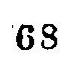68
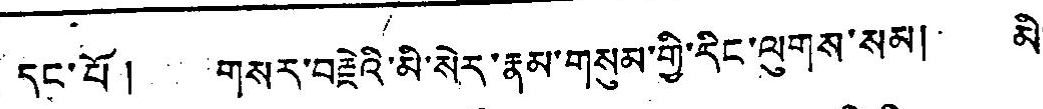དང་པོ། གསར་བརྗེའི་མི་སེར་རྣམ་གསུམ་གྱི་རིང་ལུགས་སམ། མི་
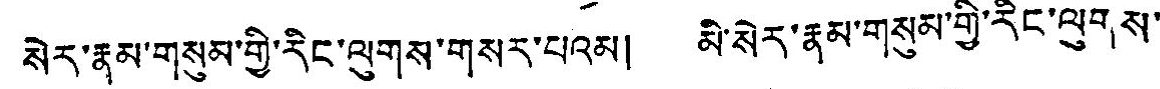སེར་རྣམ་གསུམ་གྱི་རིང་ལུགས་གསར་པའམ། མི་སེར་རྣམ་གསུམ་གྱི་རིང་ལུགས་
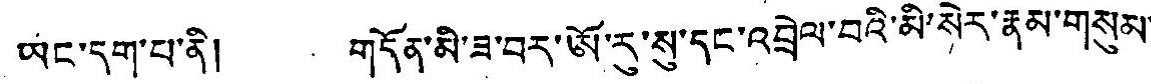ཡང་དག་པ་ནི། གདོན་མི་ཟ་བར་ཨོ་རུ་སུ་དང་འབྲེལ་བའི་མི་སེར་རྣམ་གསུམ་
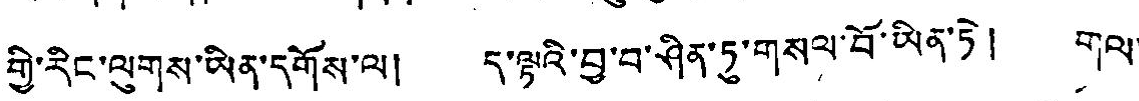གྱི་རིང་ལུགས་ཡིན་དགོས་ལ། ད་ལྟའི་བྱ་བ་ཤིན་ཏུ་གསལ་བོ་ཡིན་ཏེ། གལ་
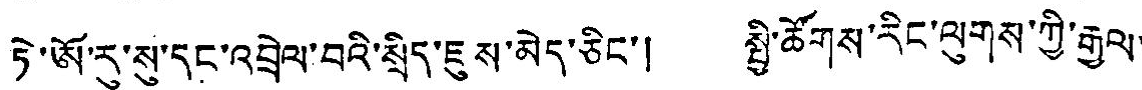ཏེ་ཨོ་རུ་སུ་དང་འབྲེལ་བའི་སྲིད་ཇུས་མེད་ཅིང་། སྤྱི་ཚོགས་རིང་ལུགས་ཀྱི་རྒྱལ་
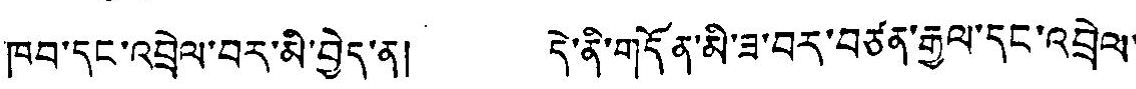ཁབ་དང་འབྲེལ་བར་མི་བྱེད་ན། དེ་ནི་གདོན་མི་ཟ་བར་བཙན་རྒྱལ་དང་འབྲེལ་
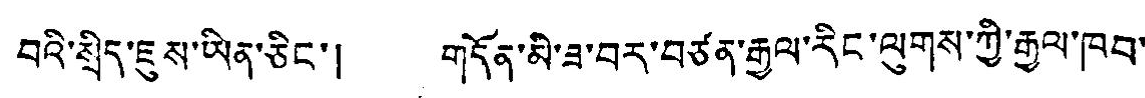བའི་སྲིད་ཇུས་ཡིན་ཅིང་། གདོན་མི་ཟ་བར་བཙན་རྒྱལ་རིང་ལུགས་ཀྱི་རྒྱལ་ཁབ་
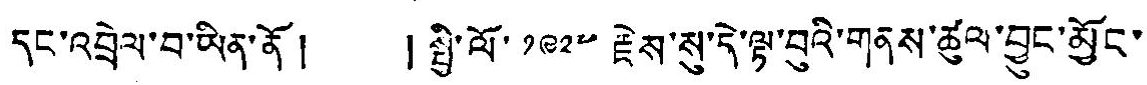དང་འབྲེལ་བ་ཡིན་ནོ ། །སྤྱི་ལོ་ ༡༩༢༧ རྗེས་སུ་དེ་ལྟ་བུའི་གནས་ཚུལ་བྱུང་མྱོང་
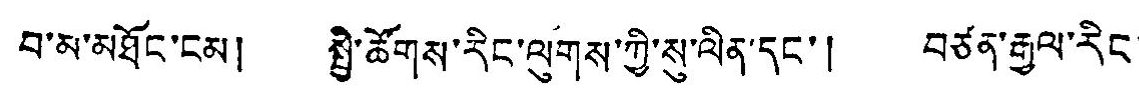བ་མ་མཐོང་ངམ། སྤྱི་ཚོགས་རིང་ལུགས་ཀྱི་སུ་ལིན་དང་། བཙན་རྒྱལ་རིང་
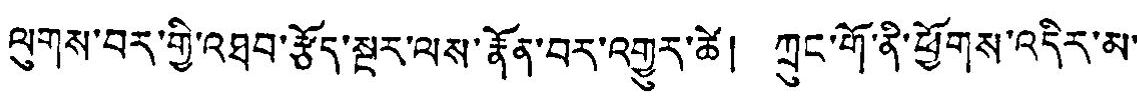ལུགས་བར་གྱི་འཐབ་རྩོད་སྔར་ལས་རྣོན་བར་འགྱུར་ཚེ། ཀྲུང་གོ་ནི་ཕྱོགས་འདིར་མ་
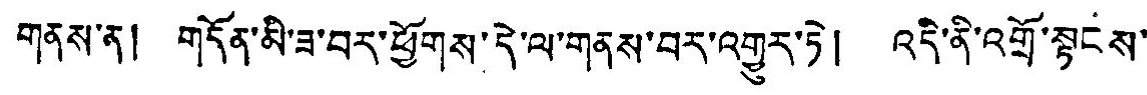གནས་ན། གདོན་མི་ཟ་བར་ཕྱོགས་དེ་ལ་གནས་བར་འགྱུར་ཏེ། འདི་ནི་འགྲོ་སྟངས་
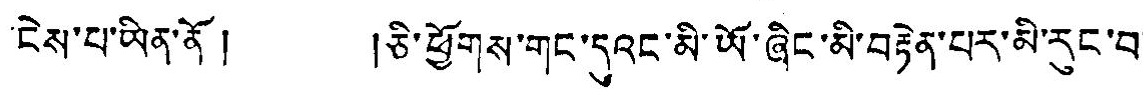ངེས་པ་ཡིན་ནོ། །ཅི་ཕྱོགས་གང་དུའང་མི་ཡོ་ཞིང་མི་བརྟེན་པར་མི་རུང་བ་
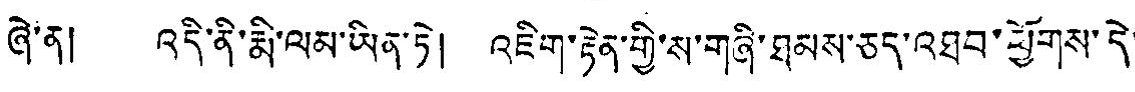ཞེ་ན། འདི་ནི་མི་ལམ་ཡིན་ཏེ། འཇིག་རྟེན་གྱི་ས་གཞི་ཐམས་ཅད་འཐབ་ཕྱོགས་དེ་
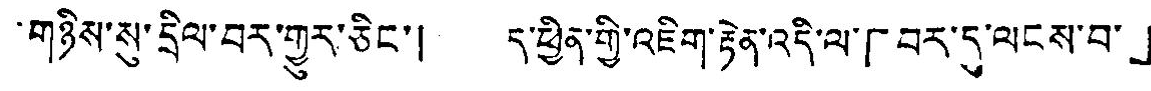གཉིས་སུ་དྲིལ་བར་གྱུར་ཅིང་། དུ་ཕྱིན་གྱི་འཇིག་རྟེན་འདི་ལ་「བར་དུ་ལངས་བ་」
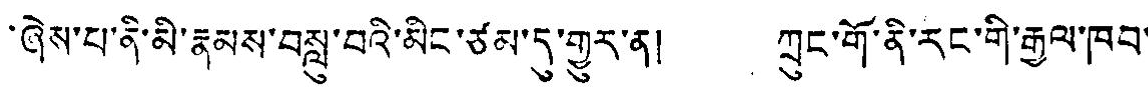ཞེས་པ་ནི་མི་རྣམས་བསླུ་བའི་མིང་ཙམ་དུ་གྱུར་ན། ཀྲུང་གོ་ནི་རང་གི་རྒྱལ་ཁབ་
